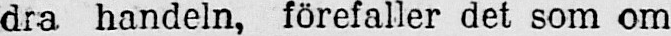dra handeln, förefaller det som om
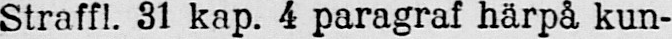Straffl. 31 kap. 4 paragraf härpå kun-
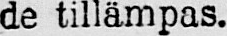de tillämpas.
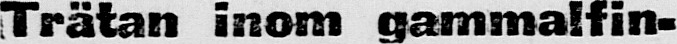Trätan inom gammalfin-
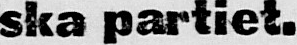ska partiet.
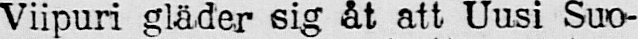Viipuri gläder sig åt att Uusi Suo-
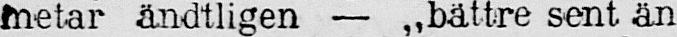metar åndtligen — ,,bättre sent än
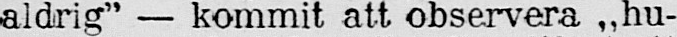aldrig” — kommit att observera ,,hu-
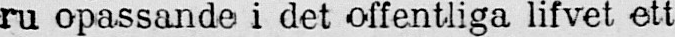ru opassande i det offentliga lifvet ett
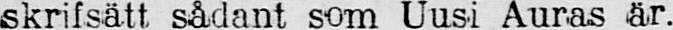skrifsätt. sådant som Uusi Auras är.
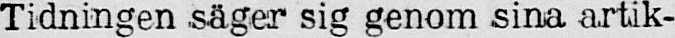Tidningen säger sig genom sina artik-
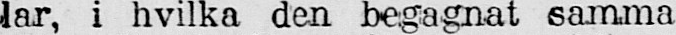lar, i hvilka den begagnat samma
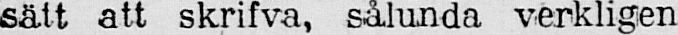sätt att skrifva, sålunda verkligen
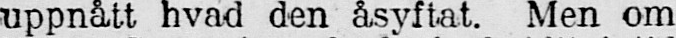uppnått hvad den åsyftat. Men om
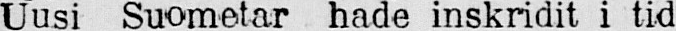Uusi Suometar hade inskridit i tid
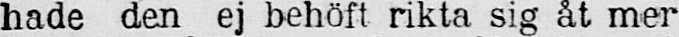hade den ej behöft rikta sig åt mer
